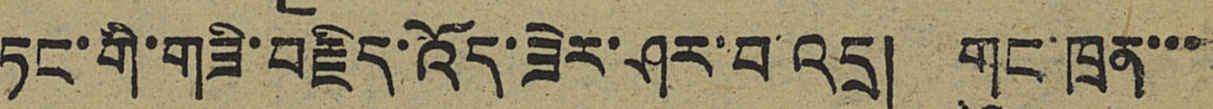ཏང་གི་གཟི་བརྗིད་འོད་ཟེར་ཤར་བ་འདྲ། གུང་ཁྲན་་་
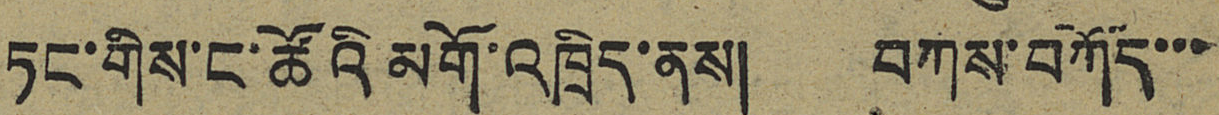ཏང་གིས་ང་ཚོའི མགོ་འཁྲིད་ནས། བཀས་བཀོད་་་
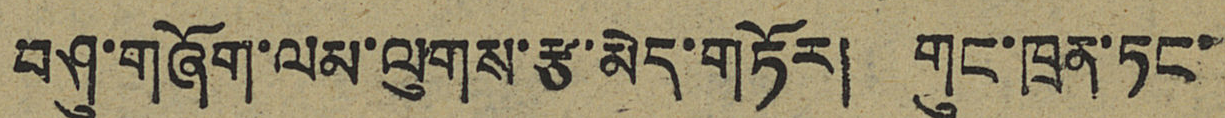བཤུ་གཞོག་ལམ་ལུགས་རྩ་མེད་གཏོར། གུང་ཁྲན་ཏང་
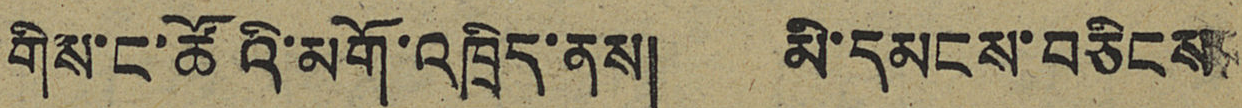གིས་ང་ཚོའི་མགོ་འཁྲིད་ནས། མི་དམངས་བཅིངས
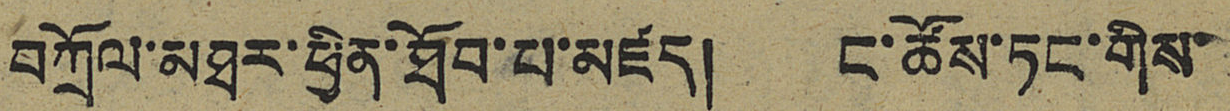བཀྲོལ་མཐར་ཕྱིན་ཐོབ་པ་མཛད། ང་ཚོས་ཏང་གིས་
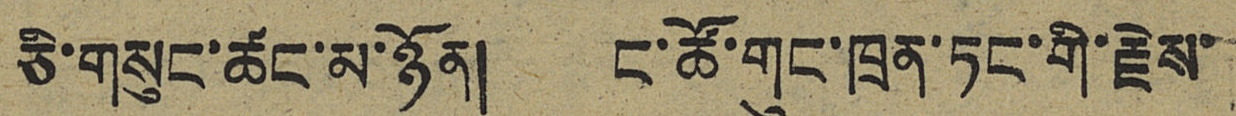ཅི་གསུང་ཚང་མ་ཉོན། ང་ཚོ་གུང་ཁྲན་ཏང་གི་རྗེས་
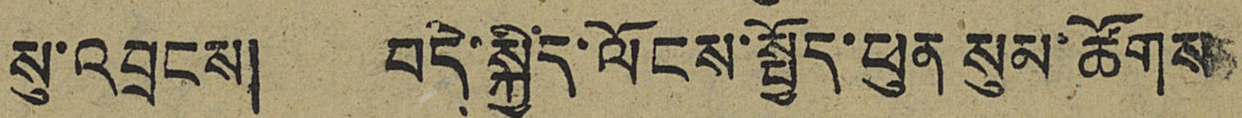སུ་འབྲངས། བདེ་སྐྱིད་ལོངས་སྤྱོད་ཕུན སུམ་ཚོགས
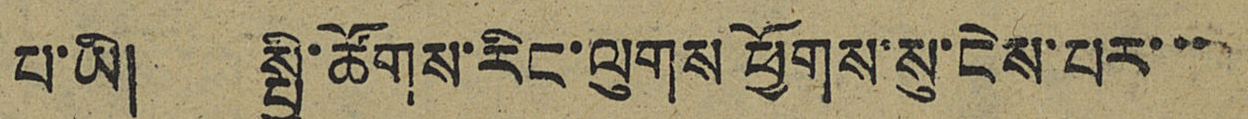པ་ཡི། སྤྱི་ཚོགས་རིང་ལུགས ཕྱོགས་སུ་ངེས་པར་་་
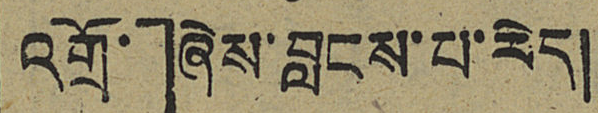འགྲོ་」ཞེས་བླངས་པ་རེད།
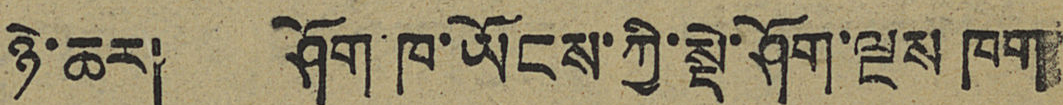ཉེ་ཆར། ཤོག་ཁ་ཡོངས་ཀྱི་སྡེ་ཤོག་ལྔས ཁག
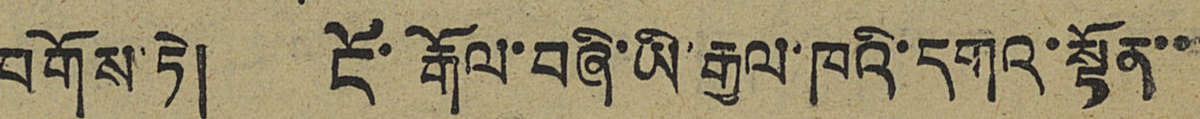བགོས་ཏེ། ངོ་རྒོལ་བཞི་ཡི་རྒྱལ་ཁའི་དགའ་སྟོན་་
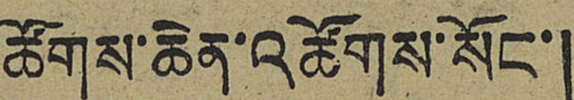ཚོགས་ཆེན་འཚོགས་སོང་།
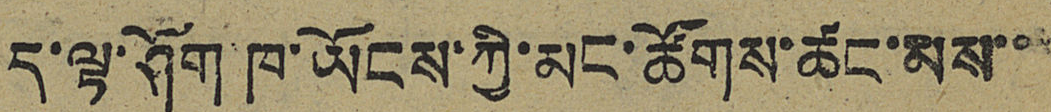ད་ལྟ་ཤོག ཁ་ཡོངས་ཀྱི་མང་ཚོགས་ཚང་མས་་
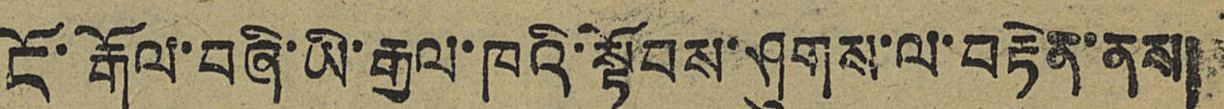ངོ་རྒོལ་བཞི་ཡི་རྒྱལ་ཁའི་སྟོབས་ཤུགས་ལ་བརྟེན་ནས།
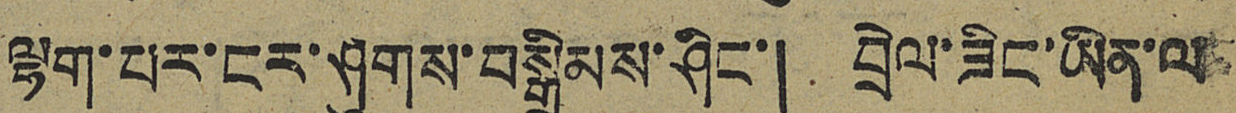ལྷག་པར་ངར་ཤུགས་བསྒྲིམས་ཤིང་། བྲེལ་ཟིང་ཡིན་ལ
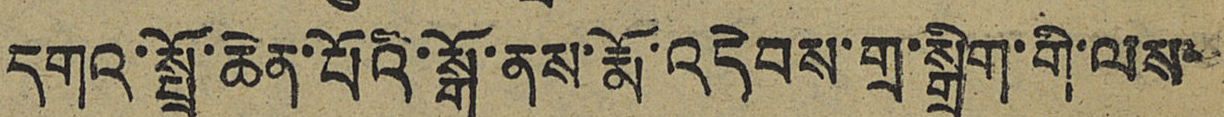དགའ་སྤྲོ་ཆེན་པོའི་སྒོ་ནས་རྨོ་འདེབས་གྲ་སྒྲིག་གི་ལས་
